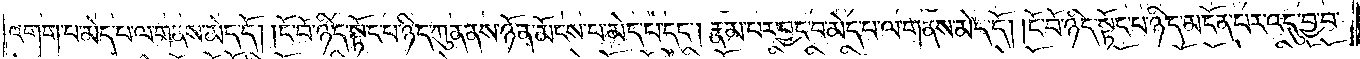འགག་པ་མེད་པ་ལ་གནས་མེད་དོ། །ངོ་བོ་ཉིད་སྟོང་པ་ཉིད་ཀུན་ནས་ཉོན་མོངས་པ་མེད་པ་དང༌། རྣམ་པར་བྱང་བ་མེད་པ་ལ་གནས་མེད་དོ། །ངོ་བོ་ཉིད་སྟོང་པ་ཉིད་མངོན་པར་འདུ་བྱ་བ་
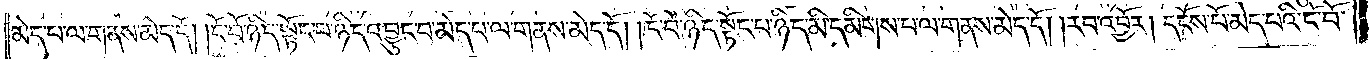མེད་པ་ལ་གནས་མེད་དོ། །ངོ་བོ་ཉིད་སྟོང་པ་ཉིད་འབྱུང་བ་མེད་པ་ལ་གནས་མེད་དོ། །ངོ་བོ་ཉིད་སྟོང་པ་ཉིད་མི་དམིགས་པ་ལ་གནས་མེད་དོ། །རབ་འབྱོར། དངོས་པོ་མེད་པའི་ངོ་བོ་
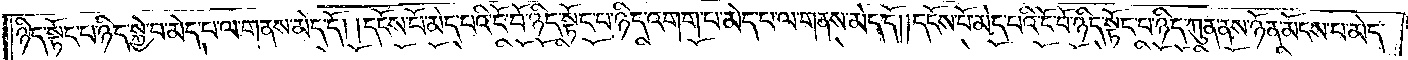ཉིད་སྟོང་པ་ཉིད་སྐྱེ་བ་མེད་པ་ལ་གནས་མེད་དོ། །དངོས་པོ་མེད་པའི་ངོ་བོ་ཉིད་སྟོང་པ་ཉིད་འགག་པ་མེད་པ་ལ་གནས་མེད་དོ། །དངོས་པོ་མེད་པའི་ངོ་བོ་ཉིད་སྟོང་པ་ཉིད་ཀུན་ནས་ཉོན་མོངས་པ་མེད་
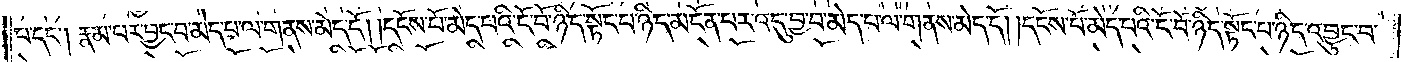པ་དང༌། རྣམ་པར་བྱང་བ་མེད་པ་ལ་གནས་མེད་དོ། །དངོས་པོ་མེད་པའི་ངོ་བོ་ཉིད་སྟོང་པ་ཉིད་མངོན་པར་འདུ་བྱ་བ་མེད་པ་ལ་གནས་མེད་དོ། །དངོས་པོ་མེད་པའི་ངོ་བོ་ཉིད་སྟོང་པ་ཉིད་འབྱུང་བ་
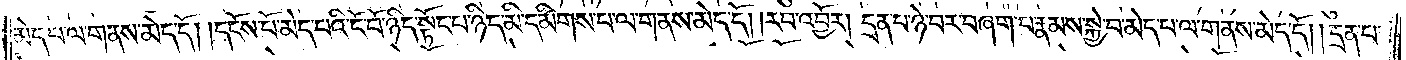མེད་པ་ལ་གནས་མེད་དོ། །དངོས་པོ་མེད་པའི་ངོ་བོ་ཉིད་སྟོང་པ་ཉིད་མི་དམིགས་པ་ལ་གནས་མེད་དོ། །རབ་འབྱོར། དྲན་པ་ཉེ་བར་བཞག་པ་རྣམས་སྐྱེ་བ་མེད་པ་ལ་གནས་མེད་དོ། །དྲན་པ་
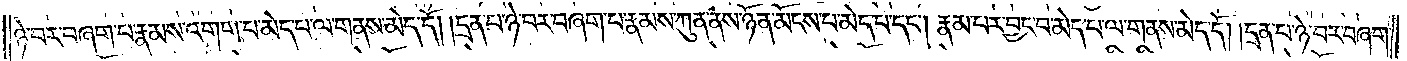ཉེ་བར་བཞག་པ་རྣམས་འགག་པ་མེད་པ་ལ་གནས་མེད་དོ། །དྲན་པ་ཉེ་བར་བཞག་པ་རྣམས་ཀུན་ནས་ཉོན་མོངས་པ་མེད་པ་དང༌། རྣམ་པར་བྱང་བ་མེད་པ་ལ་གནས་མེད་དོ། །དྲན་པ་ཉེ་བར་བཞག་
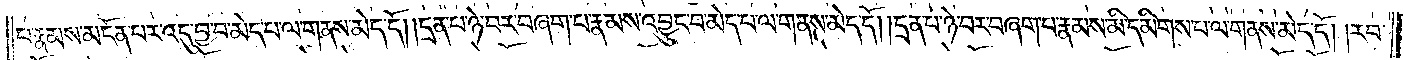པ་རྣམས་མངོན་པར་འདུ་བྱ་བ་མེད་པ་ལ་གནས་མེད་དོ། །དྲན་པ་ཉེ་བར་བཞག་པ་རྣམས་འབྱུང་བ་མེད་པ་ལ་གནས་མེད་དོ། །དྲན་པ་ཉེ་བར་བཞག་པ་རྣམས་མི་དམིགས་པ་ལ་གནས་མེད་དོ། །རབ་
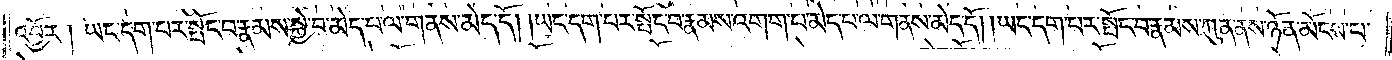འབྱོར། ཡང་དག་པར་སྤོང་བ་རྣམས་སྐྱེ་བ་མེད་པ་ལ་གནས་མེད་དོ། །ཡང་དག་པར་སྤོང་བ་རྣམས་འགག་པ་མེད་པ་ལ་གནས་མེད་དོ། །ཡང་དག་པར་སྤོང་བ་རྣམས་ཀུན་ནས་ཉོན་མོངས་པ་
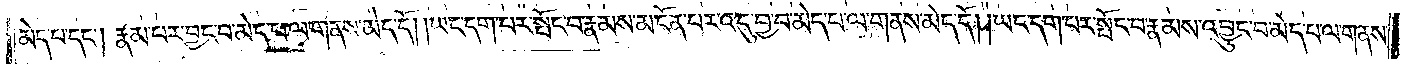མེད་པ་དང༌། རྣམ་པར་བྱང་བ་མེད་པ་ལ་གནས་མེད་དོ། །ཡང་དག་པར་སྤོང་པ་རྣམས་མངོན་པར་འདུ་བྱ་བ་མེད་པ་ལ་གནས་མེད་དོ། །ཡང་དག་པར་སྤོང་པ་རྣམས་འབྱུང་བ་མེད་པ་ལ་གནས་
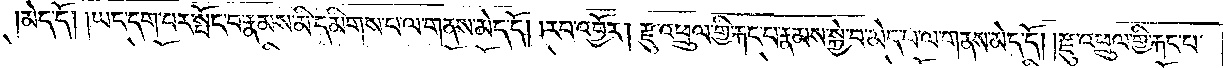མེད་དོ། །ཡང་དག་པར་སྤོང་བ་རྣམས་མི་དམིགས་པ་ལ་གནས་མེད་དོ། །རབ་འབྱོར། རྫུ་འཕྲུལ་གྱི་རྐང་པ་རྣམས་སྐྱེ་བ་མེད་པ་ལ་གནས་མེད་དོ། །རྫུ་འཕྲུལ་གྱི་རྐང་པ་
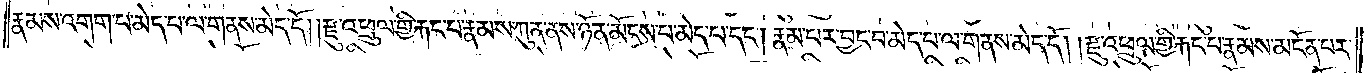རྣམས་འགག་པ་མེད་པ་ལ་གནས་མེད་དོ། །རྫུ་འཕྲུལ་གྱི་རྐང་པ་རྣམས་ཀུན་ནས་ཉོན་མོངས་པ་མེད་པ་དང༌། རྣམ་པར་བྱང་བ་མེད་པ་ལ་གནས་མེད་དོ། །རྫུ་འཕྲུལ་གྱི་རྐང་པ་རྣམས་མངོན་པར་
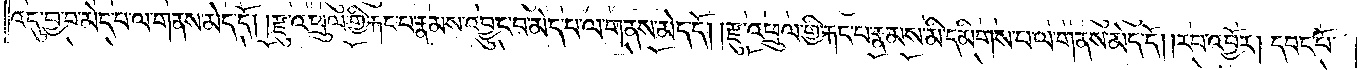འདུ་བྱ་བ་མེད་པ་ལ་གནས་མེད་དོ། །རྫུ་འཕྲུལ་གྱི་རྐང་པ་རྣམས་འབྱུང་བ་མེད་པ་ལ་གནས་མེད་དོ། །རྫུ་འཕྲུལ་གྱི་རྐང་པ་རྣམས་མི་དམིགས་པ་ལ་གནས་མེད་དོ། །རབ་འབྱོར། དབང་པོ་
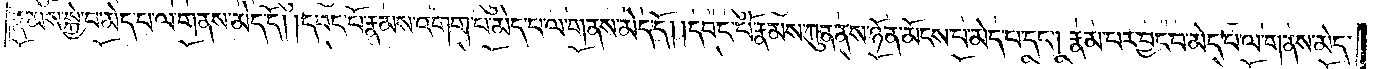རྣམས་སྐྱེ་བ་མེད་པ་ལ་གནས་མེད་དོ། །དབང་པོ་རྣམས་འགག་པ་མེད་པ་ལ་གནས་མེད་དོ། །དབང་པོ་རྣམས་ཀུན་ནས་ཉོན་མོངས་པ་མེད་པ་དང༌། རྣམ་པར་བྱང་བ་མེད་པ་ལ་གནས་མེད་
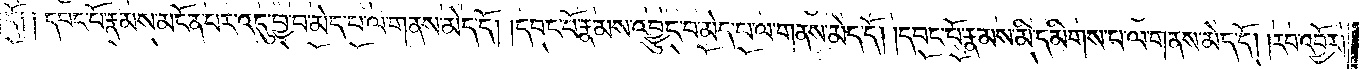དོ། །དབང་པོ་རྣམས་མངོན་པར་འདུ་བྱ་བ་མེད་པ་ལ་གནས་མེད་དོ། །དབང་པོ་རྣམས་འབྱུང་བ་མེད་པ་ལ་གནས་མེད་དོ། །དབང་པོ་རྣམས་མི་དམིགས་པ་ལ་གནས་མེད་དོ། །རབ་འབྱོར།
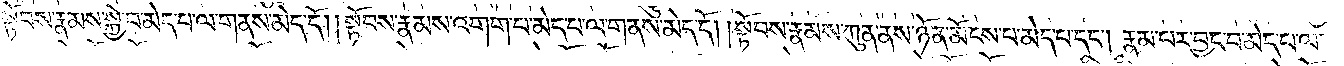སྟོབས་རྣམས་སྐྱེ་བ་མེད་པ་ལ་གནས་མེད་དོ། །སྟོབས་རྣམས་འགག་པ་མེད་པ་ལ་གནས་མེད་དོ། །སྟོབས་རྣམས་ཀུན་ནས་ཉོན་མོངས་པ་མེད་པ་དང༌། རྣམ་པར་བྱང་བ་མེད་པ་ལ་
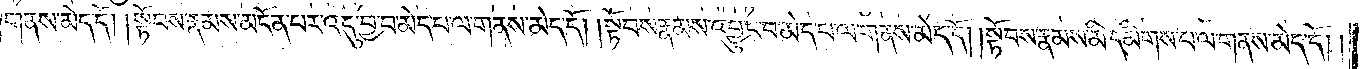གནས་མེད་དོ། །སྟོབས་རྣམས་མངོན་པར་འདུ་བྱ་བ་མེད་པ་ལ་གནས་མེད་དོ། །སྟོབས་རྣམས་འབྱུང་བ་མེད་པ་ལ་གནས་མེད་དོ། །སྟོབས་རྣམས་མི་དམིགས་པ་ལ་གནས་མེད་དོ། །
